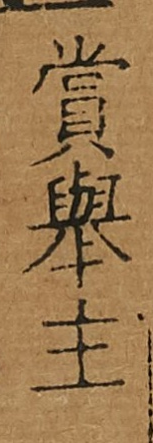賞舉主
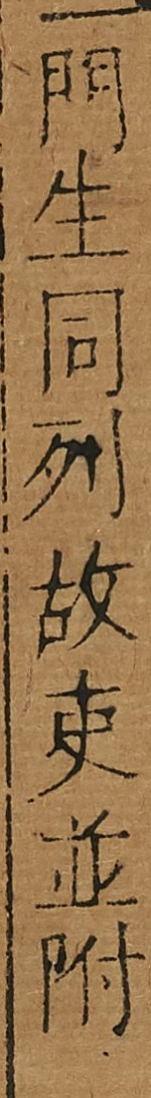門生同列故吏並附
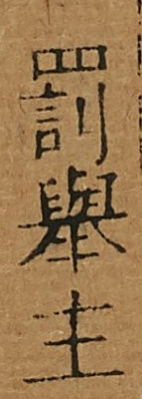罰舉主
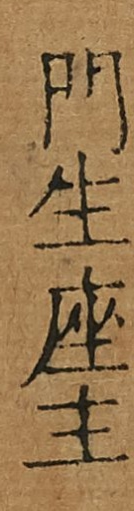門生座主
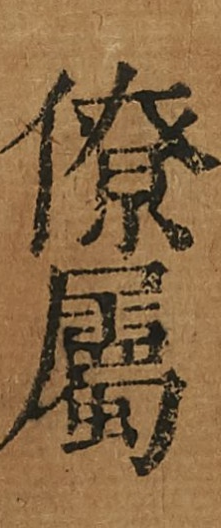僚屬
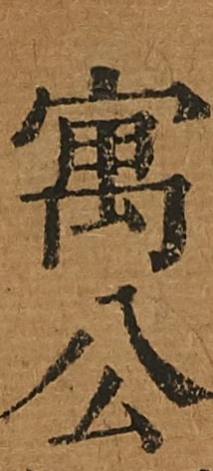寓公
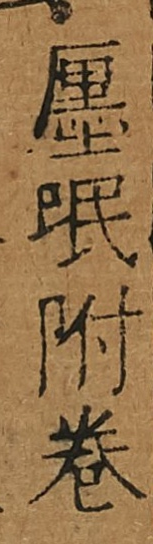塵泯附卷
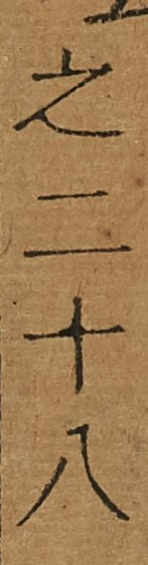之二十八
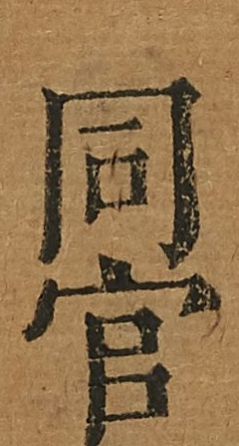同官
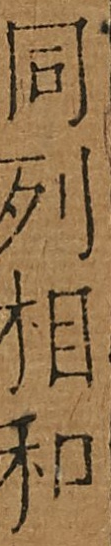同列相和
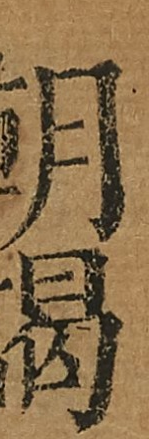朝謁
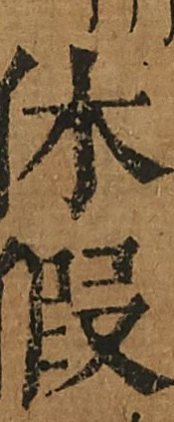休假
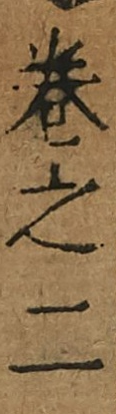卷之二
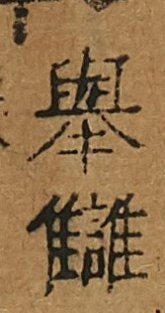舉讎
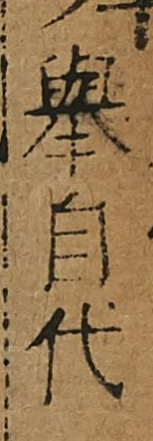舉自代
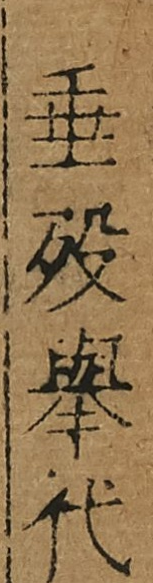垂歿舉代
